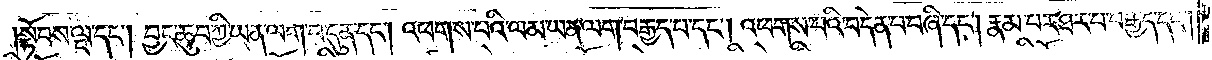སྟོབས་ལྔ་དང༌། བྱང་ཆུབ་ཀྱི་ཡན་ལག་བདུན་དང༌། འཕགས་པའི་ལམ་ཡན་ལག་བརྒྱད་པ་དང༌། འཕགས་པའི་བདེན་པ་བཞི་དང༌། རྣམ་པར་ཐར་པ་བརྒྱད་དང༌།
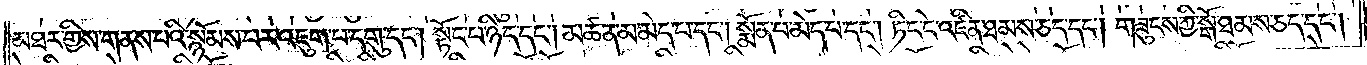མཐར་གྱིས་གནས་པའི་སྙོམས་པར་འཇུག་པ་དགུ་དང༌། སྟོང་པ་ཉིད་དང༌། མཚན་མ་མེད་པ་དང༌། སྨོན་པ་མེད་པ་དང༌། ཏིང་ངེ་འཛིན་ཐམས་ཅད་དང༌། གཟུངས་ཀྱི་སྒོ་ཐམས་ཅད་དང༌།
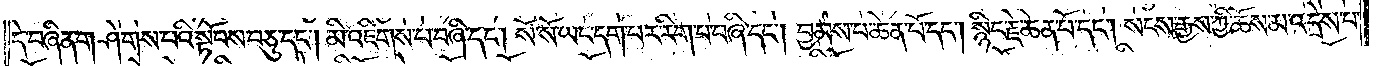དེ་བཞིན་གཤེགས་པའི་སྟོབས་བཅུ་དང༌། མི་འཇིགས་པ་བཞི་དང༌། སོ་སོ་ཡང་དག་པར་རིག་པ་བཞི་དང༌། བྱམས་པ་ཆེན་པོ་དང༌། སྙིང་རྗེ་ཆེན་པོ་དང༌། སངས་རྒྱས་ཀྱི་ཆོས་མ་འདྲེས་པ་
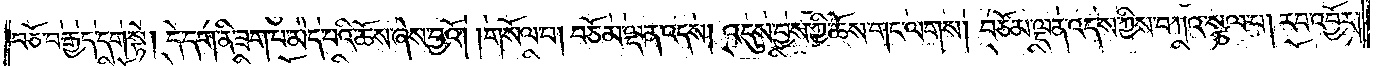བཅོ་བརྒྱད་དག་སྟེ། དེ་དག་ནི་ཟག་པ་མེད་པའི་ཆོས་ཞེས་བྱའོ། །གསོལ་པ། བཅོམ་ལྡན་འདས། འདུས་བྱས་ཀྱི་ཆོས་གང་ལགས། བཅོམ་ལྡན་འདས་ཀྱིས་བཀའ་སྩལ་པ། རབ་འབྱོར།
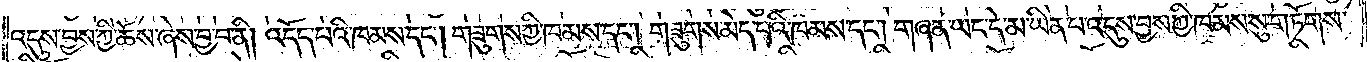འདུས་བྱས་ཀྱི་ཆོས་ཞེས་བྱ་བ་ནི། འདོད་པའི་ཁམས་དང༌། གཟུགས་ཀྱི་ཁམས་དང༌། གཟུགས་མེད་པའི་ཁམས་དང༌། གཞན་ཡང་དེ་མ་ཡིན་པ་འདུས་བྱས་ཀྱི་ཁམས་སུ་གཏོགས་
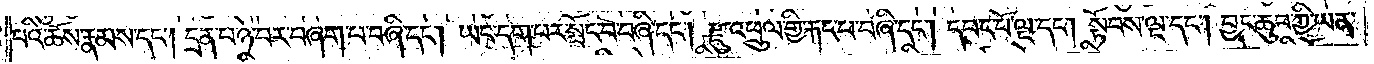པའི་ཆོས་རྣམས་དང༌། དྲན་པ་ཉ་བར་བཞག་པ་བཞི་དང༌། ཡང་དག་པར་སྤོང་བ་བཞི་དང༌། རྫུ་འཕྲུལ་གྱི་རྐང་པ་བཞི་དང༌། དབང་པོ་ལྔ་དང༌། སྟོབས་ལྔ་དང༌། བྱང་ཆུབ་ཀྱི་ཡན་
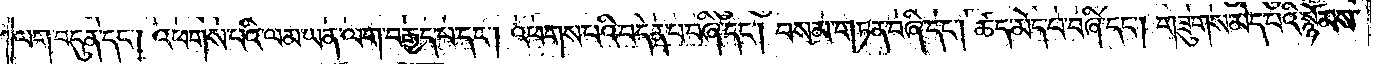ལག་བདུན་དང༌། །འཕགས་པའི་ལམ་ཡན་ལག་བརྒྱད་པ་དང༌། འཕགས་པའི་བདེན་པ་བཞི་དང༌། བསམ་གཏན་བཞི་དང༌། ཚད་མེད་པ་བཞི་དང༌། གཟུགས་མེད་པའི་སྙོམས་
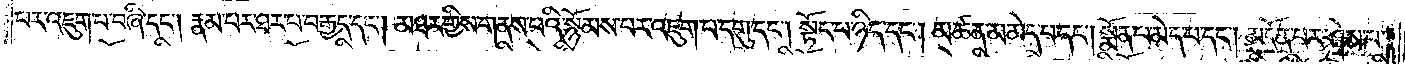པར་འཇུག་པ་བཞི་དང༌། རྣམ་པར་ཐར་པ་བརྒྱད་དང༌། མཐར་གྱིས་གནས་པའི་སྙོམས་པར་འཇུག་པ་དགུ་དང༌། སྟོང་པ་ཉིད་དང༌། མཚན་མ་མེད་པ་དང༌། སྨོན་པ་མེད་པ་དང༌། མངོན་པར་ཤེས་པ་
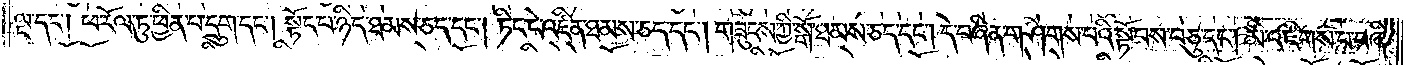ལྔ་དང༌། ཕ་རོལ་ཏུ་ཕྱིན་པ་དྲུག་དང༌། སྟོང་པ་ཉིད་ཐམས་ཅད་དང༌། ཏིང་ངེ་འཛིན་ཐམས་ཅད་དང༌། གཟུངས་ཀྱི་སྒོ་ཐམས་ཅད་དང༌། དེ་བཞིན་གཤེགས་པའི་སྟོབས་བཅུ་དང༌། མི་འཇིགས་པ་བཞི་
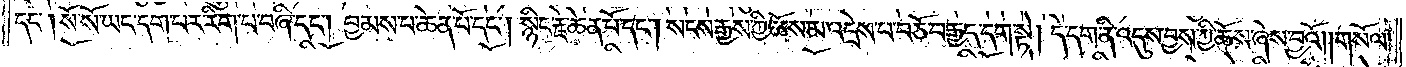དང༌། སོ་སོ་ཡང་དག་པར་རིག་པ་བཞི་དང༌། བྱམས་པ་ཆེན་པོ་དང༌། སྙིང་རྗེ་ཆེན་པོ་དང༌། སངས་རྒྱས་ཀྱི་ཆོས་མ་འདྲེས་པ་བཅོ་བརྒྱད་དག་སྟེ། དེ་དག་ནི་འདུས་བྱས་ཀྱི་ཆོས་ཞེས་བྱའོ། །གསོལ་
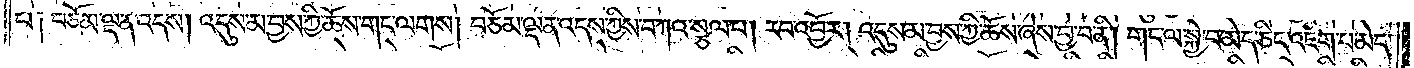བ། བཅོམ་ལྡན་འདས། འདུས་མ་བྱས་ཀྱི་ཆོས་གང་ལགས། བཅོམ་ལྡན་འདས་ཀྱིས་བཀའ་སྩལ་པ། རབ་འབྱོར། འདུས་མ་བྱས་ཀྱི་ཆོས་ཞེས་བྱ་བ་ནི། གང་ལ་སྐྱེ་བ་མེད་ཅིང་འཇིག་པ་མེད་
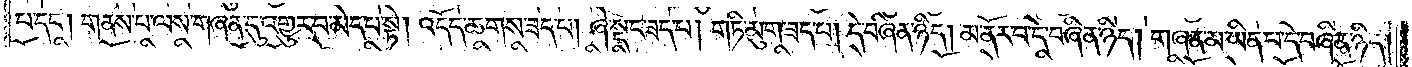པ་དང༌། གནས་པ་ལས་གཞན་དུ་འགྱུར་བ་མེད་པ་སྟེ། འདོད་ཆགས་ཟད་པ། ཞེ་སྡང་ཟད་པ། གཏི་མུག་ཟད་པ། དེ་བཞིན་ཉིད། མ་ནོར་བ་དེ་བཞིན་ཉིད། གཞན་མ་ཡིན་པ་དེ་བཞིན་ཉིད།
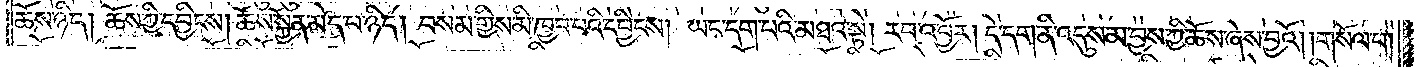ཆོས་ཉིད། ཆོས་ཀྱི་དབྱིངས། ཆོས་སྐྱོན་མེད་པ་ཉིད། བསམ་གྱིས་མི་ཁྱབ་པའི་དབྱིངས། ཡང་དག་པའི་མཐའ་སྟེ། རབ་འབྱོར། དེ་དག་ནི་འདུས་མ་བྱས་ཀྱི་ཆོས་ཞེས་བྱའོ། །གསོལ་པ།
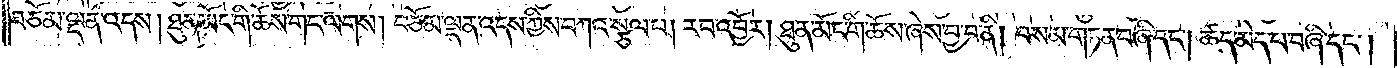བཅོམ་ལྡན་འདས། ཐུན་མོང་གི་ཆོས་གང་ལགས། བཅོམ་ལྡན་འདས་ཀྱིས་བཀའ་སྩལ་པ། རབ་འབྱོར། ཐུན་མོང་གི་ཆོས་ཞེས་བྱ་བ་ནི། བསམ་གཏན་བཞི་དང༌། ཚད་མེད་པ་བཞི་དང༌།
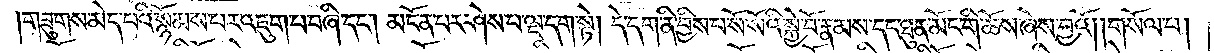གཟུགས་མེད་པའི་སྙོམས་པར་འཇུག་པ་བཞི་དང༌། མངོན་པར་ཤེས་པ་ལྔ་དག་སྟེ། དེ་དག་ནི་བྱིས་པ་སོ་སོའི་སྐྱེ་བོ་རྣམས་དང་ཐུན་མོང་གི་ཆོས་ཞེས་བྱའོ། །གསོལ་པ།
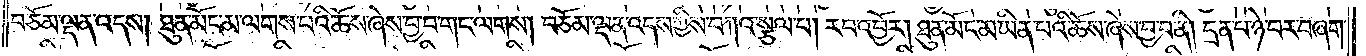བཅོམ་ལྡན་འདས། ཐུན་མོང་མ་ལགས་པའི་ཆོས་ཞེས་བྱ་བ་གང་ལགས། བཅོམ་ལྡན་འདས་ཀྱིས་བཀའ་སྩལ་པ། རབ་འབྱོར། ཐུན་མོང་མ་ཡིན་པའི་ཆོས་ཞེས་བྱ་བ་ནི། དྲན་པ་ཉེ་བར་བཞག་
